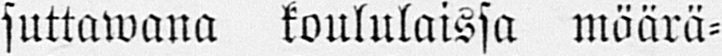suttawana koululaissa määrä-
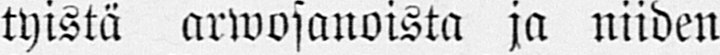tyistä arwosanoista ja niiden
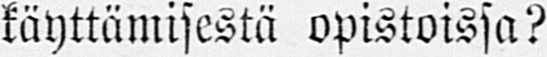käyttämisestä opistoissa?
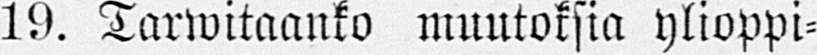19. Tarwitaanko muutoksia ylioppi-
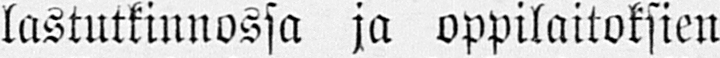lastutkinnossa ja oppilaitoksien
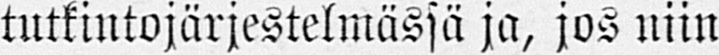tutkintojärjestelmässä ja, jos niin
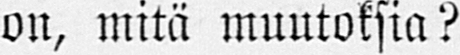on, mitä muutoksia?
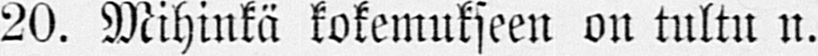20. Mihinkä kokemukseen on tultu n.
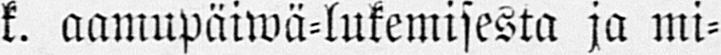k. aamupäiwä-lukemisesta ja mi-
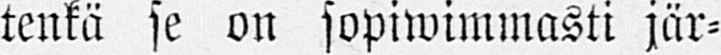tenkä se on sopiwimmasti jär-
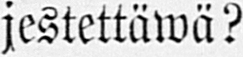jestettäwä?
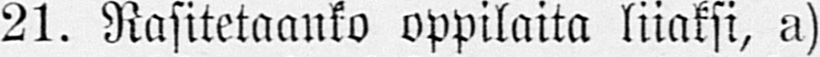21. Rasitetaanko oppilaita liiaksi, a)
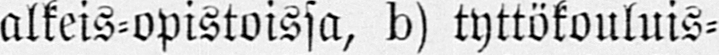alkeis-opistoissa, b) tyttökouluis-
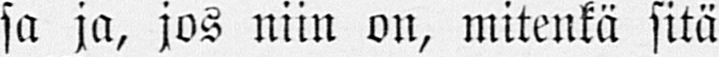sa ja, jos niin on, mitenkä sitä
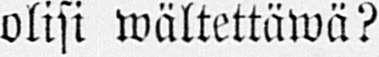olisi wältettäwä?
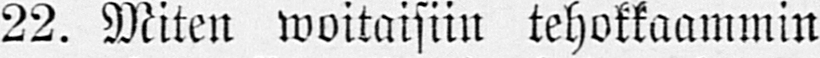22. Miten woitaisiin tehokkaammin
